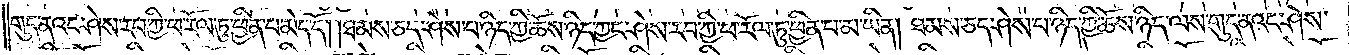གུད་ནའང་ཤེས་རབ་ཀྱི་ཕ་རོལ་ཏུ་ཕྱིན་པ་མེད་དོ། །ཐམས་ཅད་ཤེས་པ་ཉིད་ཀྱི་ཆོས་ཉིད་ཀྱང་ཤེས་རབ་ཀྱི་ཕ་རོལ་ཏུ་ཕྱིན་པ་མ་ཡིན། ཐམས་ཅད་ཤེས་པ་ཉིད་ཀྱི་ཆོས་ཉིད་ལས་གུད་ནའང་ཤེས་
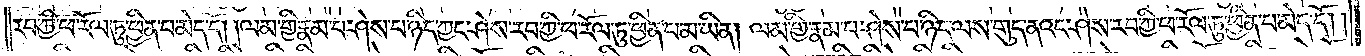རབ་ཀྱི་ཕ་རོལ་ཏུ་ཕྱིན་པ་མེད་དོ། །ལམ་གྱི་རྣམ་པ་ཤེས་པ་ཉིད་ཀྱང་ཤེས་རབ་ཀྱི་ཕ་རོལ་ཏུ་ཕྱིན་པ་མ་ཡིན། ལམ་གྱི་རྣམ་པ་ཤེས་པ་ཉིད་ལས་གུད་ནའང་ཤེས་རབ་ཀྱི་ཕ་རོལ་ཏུ་ཕྱིན་པ་མེད་དོ། །
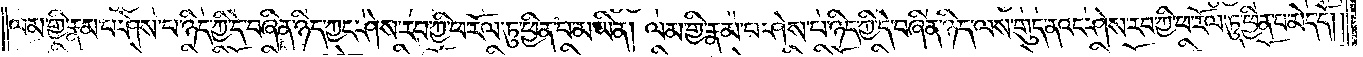ལམ་གྱི་རྣམ་པ་ཤེས་པ་ཉིད་ཀྱི་དེ་བཞིན་ཉིད་ཀྱང་ཤེས་རབ་ཀྱི་ཕ་རོལ་ཏུ་ཕྱིན་པ་མ་ཡིན། ལམ་གྱི་རྣམ་པ་ཤེས་པ་ཉིད་ཀྱི་དེ་བཞིན་ཉིད་ལས་གུད་ནའང་ཤེས་རབ་ཀྱི་ཕ་རོལ་ཏུ་ཕྱིན་པ་མེད་དོ། །
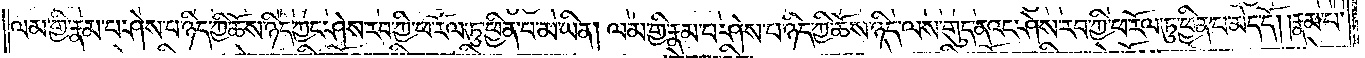ལམ་གྱི་རྣམ་པ་ཤེས་པ་ཉིད་ཀྱི་ཆོས་ཉིད་ཀྱང་ཤེས་རབ་ཀྱི་ཕ་རོལ་ཏུ་ཕྱིན་པ་མ་ཡིན། ལམ་གྱི་རྣམ་པ་ཤེས་པ་ཉིད་ཀྱི་ཆོས་ཉིད་ལས་གུད་ནའང་ཤེས་རབ་ཀྱི་ཕ་རོལ་ཏུ་ཕྱིན་པ་མེད་དོ། །རྣམ་པ་
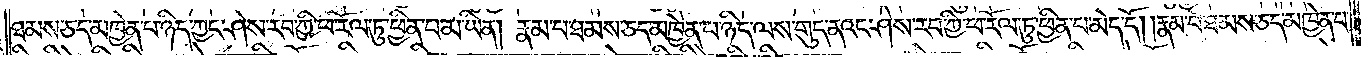ཐམས་ཅད་མཁྱེན་པ་ཉིད་ཀྱང་ཤེས་རབ་ཀྱི་ཕ་རོལ་ཏུ་ཕྱིན་པ་མ་ཡིན། རྣམ་པ་ཐམས་ཅད་མཁྱེན་པ་ཉིད་ལས་གུད་ནའང་ཤེས་རབ་ཀྱི་ཕ་རོལ་ཏུ་ཕྱིན་པ་མེད་དོ། །རྣམ་པ་ཐམས་ཅད་མཁྱེན་པ་
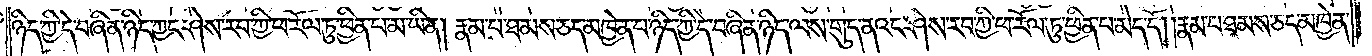ཉིད་ཀྱི་དེ་བཞིན་ཉིད་ཀྱང་ཤེས་རབ་ཀྱི་ཕ་རོལ་ཏུ་ཕྱིན་པ་མ་ཡིན། རྣམ་པ་ཐམས་ཅད་མཁྱེན་པ་ཉིད་ཀྱི་དེ་བཞིན་ཉིད་ལས་གུད་ནའང་ཤེས་རབ་ཀྱི་ཕ་རོལ་ཏུ་ཕྱིན་པ་མེད་དོ། །རྣམ་པ་ཐམས་ཅད་མཁྱེན་
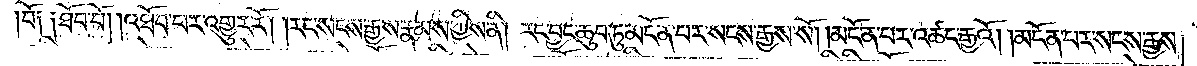བོ། །ཐོབ་བོ། །འཐོབ་པར་འགྱུར་རོ། །རང་སངས་རྒྱས་རྣམས་ཀྱིས་ནི། རང་བྱང་ཆུབ་ཏུ་མངོན་པར་སངས་རྒྱས་སོ། །མངོན་པར་འཚང་རྒྱའོ། །མངོན་པར་སངས་རྒྱས་
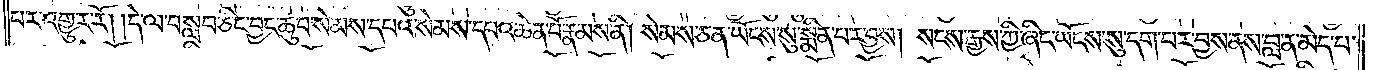པར་འགྱུར་རོ། །དེ་ལ་བསླབ་ཅིང་བྱང་ཆུབ་སེམས་དཔའ་སེམས་དཔའ་ཆེན་པོ་རྣམས་ནི། སེམས་ཅན་ཡོངས་སུ་སྨིན་པར་བྱས། སངས་རྒྱས་ཀྱི་ཞིང་ཡོངས་སུ་དག་པར་བྱས་ནས་བླ་ན་མེད་པ་
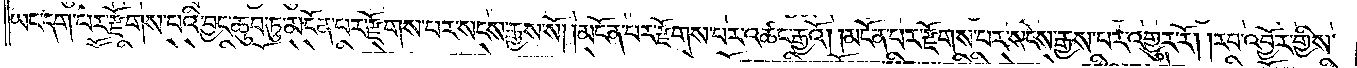ཡང་དག་པར་རྫོགས་པའི་བྱང་ཆུབ་ཏུ་མངོན་པར་རྫོགས་པར་སངས་རྒྱས་སོ། །མངོན་པར་རྫོགས་པར་འཚང་རྒྱའོ། །མངོན་པར་རྫོགས་པར་སངས་རྒྱས་པར་འགྱུར་རོ། །རབ་འབྱོར་གྱིས་
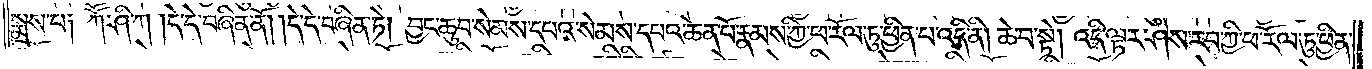སྨྲས་པ། ཀཽ་ཤི་ཀ །དེ་དེ་བཞིན་ནོ། །དེ་དེ་བཞིན་ཏེ། བྱང་ཆུབ་སེམས་དཔའ་སེམས་དཔའ་ཆེན་པོ་རྣམས་ཀྱི་ཕ་རོལ་ཏུ་ཕྱིན་པ་འདི་ནི། ཆེ་བ་སྟེ། འདི་ལྟར་ཤེས་རབ་ཀྱི་ཕ་རོལ་ཏུ་ཕྱིན་
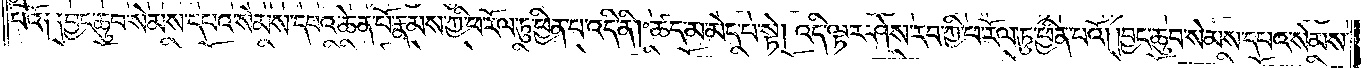པའོ། །བྱང་ཆུབ་སེམས་དཔའ་སེམས་དཔའ་ཆེན་པོ་རྣམས་ཀྱི་ཕ་རོལ་ཏུ་ཕྱིན་པ་འདི་ནི། ཚད་མ་མེད་པ་སྟེ། འདི་ལྟར་ཤེས་རབ་ཀྱི་ཕ་རོལ་ཏུ་ཕྱིན་པའོ། །བྱང་ཆུབ་སེམས་དཔའ་སེམས་
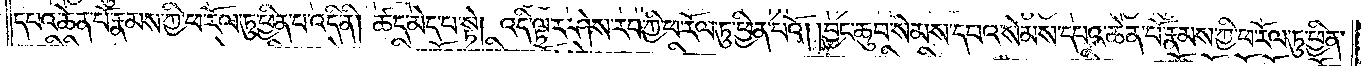དཔའ་ཆེན་པོ་རྣམས་ཀྱི་ཕ་རོལ་ཏུ་ཕྱིན་པ་འདི་ནི། ཚད་མེད་པ་སྟེ། འདི་ལྟར་ཤེས་རབ་ཀྱི་ཕ་རོལ་ཏུ་ཕྱིན་པའོ། བྱང་ཆུབ་སེམས་དཔའ་སེམས་དཔའ་ཆེན་པོ་རྣམས་ཀྱི་ཕ་རོལ་ཏུ་ཕྱིན་
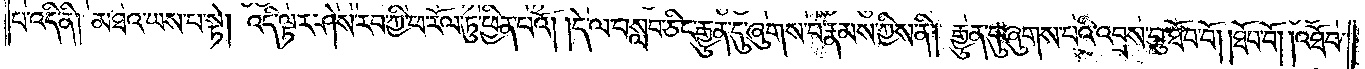པ་འདི་ནི། མཐའ་ཡས་པ་སྟེ། འདི་ལྟར་ཤེས་རབ་ཀྱི་ཕ་རོལ་ཏུ་ཕྱིན་པའོ། །དེ་ལ་བསླབ་ཅིང་རྒྱུན་དུ་ཞུགས་པ་རྣམས་ཀྱིས་ནི། རྒྱུན་དུ་ཞུགས་པའི་འབྲས་བུ་ཐོབ་བོ། །ཐོབ་བོ། །འཐོབ་
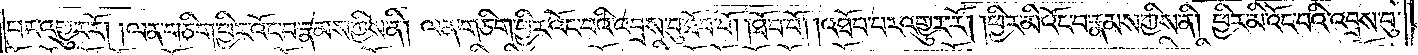པར་འགྱུར་རོ། །ལན་གཅིག་ཕྱིར་འོང་བ་རྣམས་ཀྱིས་ནི། ལན་གཅིག་ཕྱིར་འོང་བའི་འབྲས་བུ་ཐོབ་བོ། །ཐོབ་བོ། །འཐོབ་པར་འགྱུར་རོ། །ཕྱིར་མི་འོང་བ་རྣམས་ཀྱིས་ནི། ཕྱིར་མི་འོང་བའི་འབྲས་བུ་
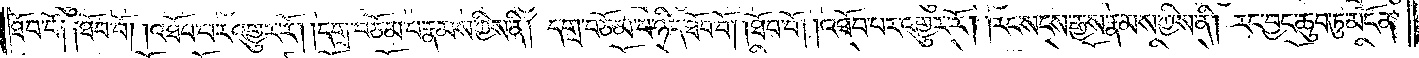ཐོབ་བོ། །ཐོབ་བོ། །འཐོབ་པར་འགྱུར་རོ། །དགྲ་བཅོམ་པ་རྣམས་ཀྱིས་ནི། དགྲ་བཅོམ་པ་ཉིད་ཐོབ་བོ། །ཐོབ་བོ། །འཐོབ་པར་འགྱུར་རོ། །རང་སངས་རྒྱས་རྣམས་ཀྱིས་ནི། རང་བྱང་ཆུབ་ཏུ་མངོན་
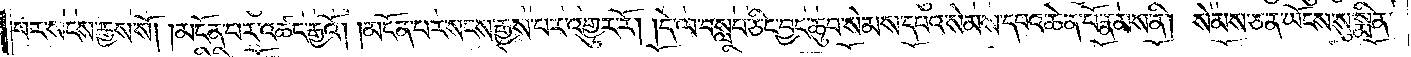པར་སངས་རྒྱས་སོ། །མངོན་པར་འཚང་རྒྱའོ། །མངོན་པར་སངས་རྒྱས་པར་འགྱུར་རོ། །དེ་ལ་བསླབ་ཅིང་བྱང་ཆུབ་སེམས་དཔའ་སེམས་དཔའ་ཆེན་པོ་རྣམས་ནི། སེམས་ཅན་ཡོངས་སུ་སྨིན་
